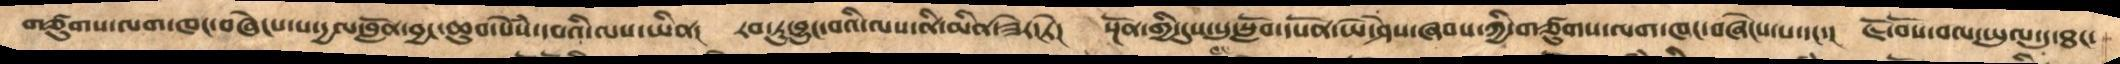གཙུགས་ལག་ཁང་བཞེངས་པ་དྱལ་བློན་བྱང་ཆུབ་སེཾས་དཔའི་ལས་ཡིན།  རབ་ཏུ་བྱུང་བའི་ལས་ནི་མིན་ཟེར་ཏེ།  སྔོན་གྱི་དུས་སུ་སློབ་དཔོན་ཡེ་ཤེས་ཞབས་ཀྱི་གཙུགས་ལག་ཁང་བཞེངས་པ་དང་།  ཇོ་བོས་བལ་ཡུལ་དུ་ཐང་
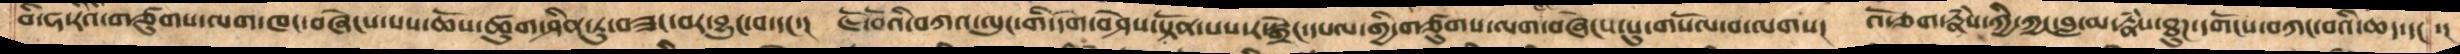བི་ཧ་རའི་གཙུགས་ལག་ཁང་བཞེངས་པས་ཆོས་ཚུག་ཤིན་ཏུ་བཟང་བར་བྱུང་བ་དང་།  ཇོ་བོའི་བཀའ་ལུང་གི་དགེ་བཤེས་སྟོན་པས་ར་སྒྲེང་དཔལ་གྱི་གཙུགས་ལག་བཞེངས་སུ་གསོལ་བ་ལགས།  འོ་ཅག་རྣཾས་ཀྱི་ཀྱང་བླ་མ་རྣཾས་ཐུཌ་དགོངས་བཀང་བའི་ཆད་དང ་།
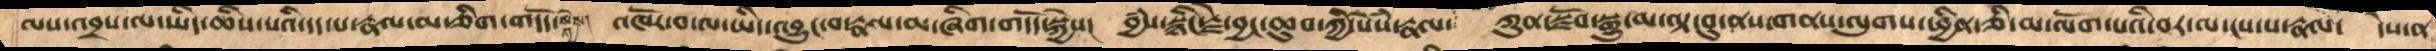ལས་འབྲས་ལ་ཡིད་ཆིས་པའི་དད་པ་རྣལ་མ་ཅིག་གདོད་སྐྱེས། འཁོར་བ་ལ་ཡིད་འབྱུང་བ་རྣལ་མ་ཅིག་གོདད་སྐྱེས།  བྱཾས་སྙིང་རྗེ་བྱང་ཆུབ་ཀྱི་སེསཾ་རྣལ་  ཀུན་སྫོབ་སྒྱུ་མ་ལྟ་བུ་ནས་གནས་ལུགས་ཕྱིན་ཅི་མ་ལོག་པའི་བར་ལ་ངས་པ་རྣལ་  དེས་ན
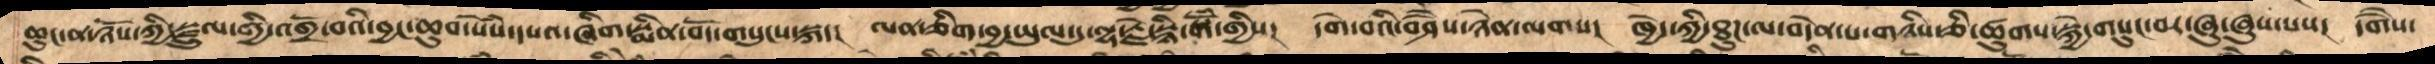ཆུང་ན་ཉོས་ཀྱི་སྫྲུལ་གྱི་འགྲོ་བའི་བྱང་ཆུབ་སེསཾ་དཔའ་ཞིག་སྨིན་བདོ་གསུངས་སྐད།  ལན་ཅིག་བྱ་ཡུལ་དུ་ལྷ་རྗེ་སྙི་སྒོཾ་གྱིས།  དགེ་བའི་བཤཻས་ཉེན་ལགས།   ཁྱེད་ཀྱི་ཐུཌ་ལ་བདེན་པ་གཉིས་ཅི་ཚུགས་སྐྱེ་གསུང་བར་ཞུ་ཞུས་པས།  དགཻས་
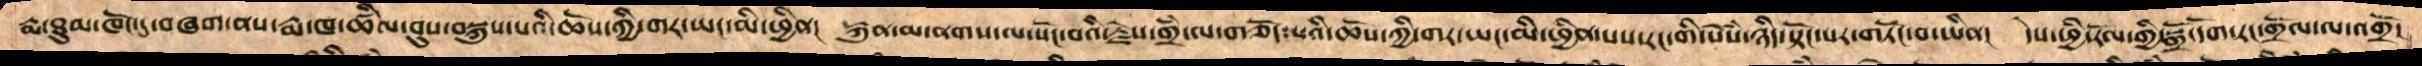རྨ་ཐུམ་ཁོང་དུ་བཞག་ནས་རྨ་ཁ་ཚིལ་བུས་བསྐུས་པའི་ཆོས་ཀྱི་གར་ཡང་མི་ཕྱིན།  རྐུན་མ་ནགས་ལ་སོང་བའི་རྗེས་གྲཾ་ལ་གཅོད་པའི་ཆོས་ཀྱི་གར་ཡང་མི་ཕྱིན་པས་རང་གི་སེཾས་ཉིད་སྟོང་པར་གཏོང་བ་ཡིན།  དེས་ཕྱི་རོལ་གྱི་སྒྲོ་དོག་རང་གྲོལ་ལ་འགྲོ།
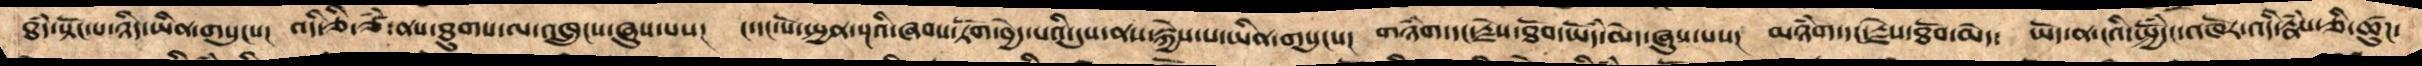ཐཾད་སྟོང་པ་ཉིད་ཡིན་གསུངས།  འདི་ཅི་ཙཾ་ནས་ཐུགས་ལ་འཁྲུངས་ཞུས་པས།  ང་དང་པོ་སྤྱན་སྔའི་ཞབས་ཏོག་བྱེད་པའི་དུས་ནས་སྐྱེས་པ་ཡིན་གསུངས།  མཉཾག་དང་རྗེས་ཐོབ་ཡོདཾ་མེད་ཞུས་པས།  མཉཾག་དང་རྗེས་ཐོབ་མེད།  ཡོད་ན་ངའི་སྤྱོཾདང་འཁོར་འདི་རྣཾས་ཅི་ཚུཌ་
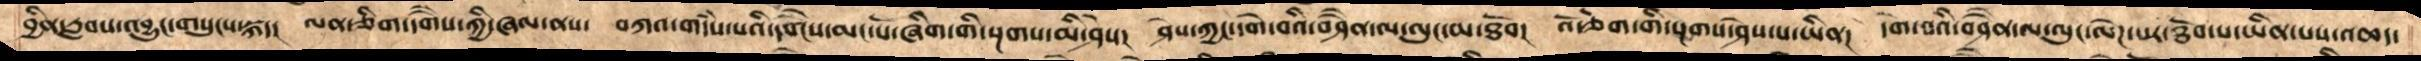བྱིན་རླབས་འབྱུང་གསུངས་སྐད།  ལན་གཅིག་དགཻས་ཀྱི་ཞལ་ནས།  བཀའ་གདཾས་པའི་དགཻས་མང་པོ་ཞིག་གི་སྔགས་མི་ཤེས།  ཤེས་ཀྱང་དགེ་བའི་བཤཻན་ལ་ལུང་མ་ཐོབ།  འོ་ཅག་གི་སྔགས་ཤེས་པ་ཡིན།  དགེ་bའི་བཤཻན་ལ་ལུང་ལེཌ་པར་ཐོབ་པ་ཡིན་པས་འཆད་
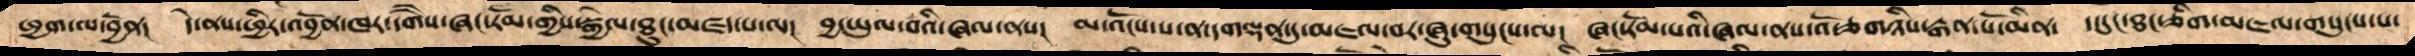ཕྱག་ལ་བྱོན།   དེ་ནས་ཕྱིར་འབྱོན་ཁར་དགཻས་ཞང་རོམ་གྱིས་སྐྱེལ་ཐུང་མཛད་པ་ལ།  བྱ་ཡུལ་བའི་ཞལ་ནས།  མ་འོངས་པ་ན་དགལྡན་དུ་མཇལ་བར་ཞུ་གསུངས་ལ།  ཞང་རོམ་པའི་ཞལ་ནས་འོ་ཅགཉིས་རྒན་པོ་མིན།  ད་དུང་ཐང་ཅིག་མཇལ་གསུངས་པ་
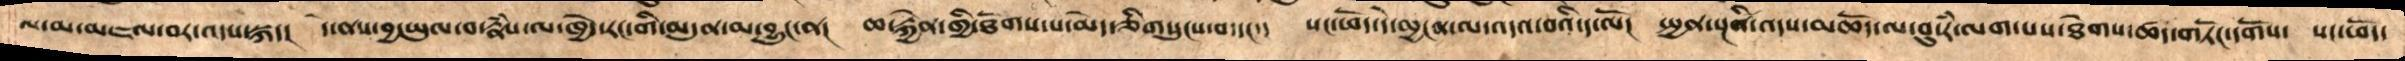ལ་མ་མཇལ་བར་འདས་སྐད།  དེ་ནས་བྱ་ཡུལ་བ་རྣཾས་ལ་ཁྱེད་རང་གི་མདུན་མ་བྱུང་ན།  ཆ་རྐྱེན་གྱི་ཐོགས་པ་མེད་ཅིགསུངས་བ་དང་།  སང་ཕོད་དེ་མྱངན་ལས་འདའ་བའི་ད་ལོ།  སྤྱན་སྔའི་འདས་མཆོད་ལ་བུ་རཾ་ལག་པས་ཐེགས་ཚད་གཏོང་དགོས།  སང་ཕོད་
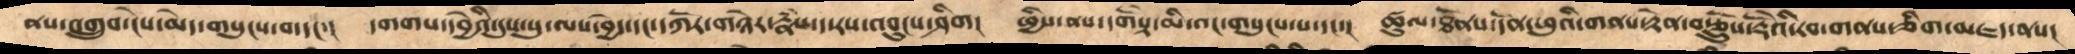ནས་འགྲུབ་ངེས་མེད་གསུངས་བ་དང་།  དགགས་དབྱེའི་དུས་སུ་ལས་བྱེད་དང་དཀོར་གཉེར་རྣཾས་ད་རས་འབུངས་ཤིག།   ཕྱིས་ནས་དགོསྟེ་མི་འང་གསུངས་པ་དང་།  ཚུལ་ཐོནས་དོན་ཕུའི་གནས་རྟེན་བརྩོནྲུས་རྡོེའི་རབ་གནས་ཅིག་མཛད་ནས་
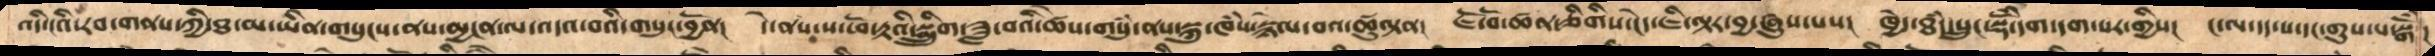འདི་ངའི་རབ་གནས་ཀྱི་ཐ་མ་ཡིན་གསུངས་ནས་མྱངན་ལས་འདའ་བའི་གསུང་བྱོན།  དེ་ནས་ཕོ་རྟའི་སྨྲིུག་ཟླ་བའི་ཚེས་གསུཾ་ནས་སྐུ་ཁཾས་སྙེལ་བའ་ཚུལྟན།  ཇོ་བོ་ཚན་ཅིགིས་ངེད་ཇི་ལྡར་བྱ་ཞུས་པས།  ཁྱེད་ཐཾད་སྲུང་སྡོཾ་དག་དག་པར་གྱིས།  ང་ལ་དད་ས་དང་གུས་པ་སྒོཾ།
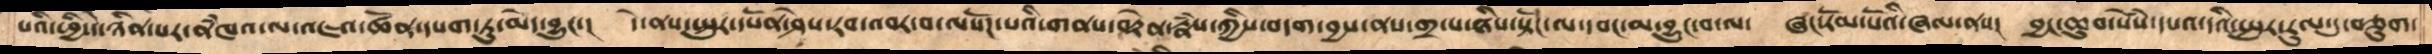པའི་ཕྱི་དེ་ཉིན་པར་ནཾཁའ་ལ་འཇའ་ཚོན་དཔག་ཏུ་མེད་བྱུང་།   དེ་ནས་སྤུར་དཔོན་ཤེས་རབ་འབར་བ་ལསོཌ་པའི་གནས་བརྟེན་རྣཾས་ཀྱིས་བདག་བྱས་ནས་གྲ་པ་ཉིས་སྟོང་ལ་དབང་མ་བྱུང་བ་ལ་  ཞང་རོམ་པོའི་ཞལ་ནས།  བྱང་ཆུབ་སེཾས་དཔའ་དའི་སྤུར་རུལ་དུ་བཅུག་
